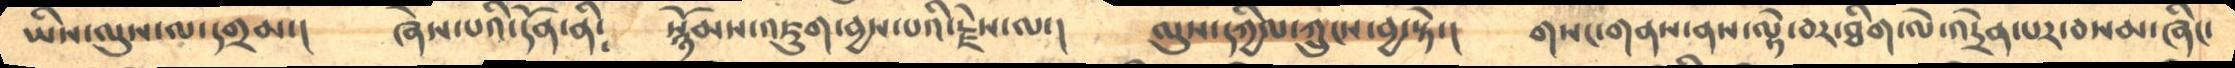ཡིས་ལུས་ལ་དགྲམ་།      ཞེས་པའི་དོན་ནི༴   སྙོམས་འཇུག་བྱས་པའི་རྗེས་ལ་།     ལུས་དཀྱིལ་ཀྲུངས་བྱ་སྟེ་།་    གསང་གནས་ནས་ལྟེ་བར་ཐིག་ལེ་འདྲེན་པར་བསམ་ཞིང་
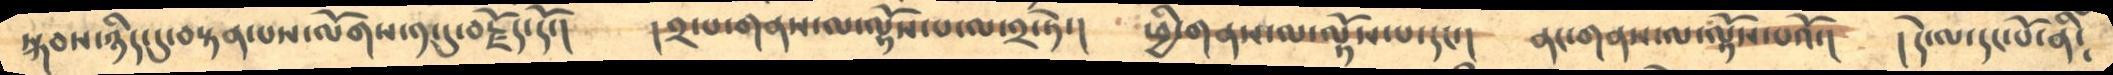སྐབས་ཉིད་དུ་བསྟན་པས་ལོགས་༡་དུ་བརྗོད་དོ་།      །༢་པ་གནས་ལ་ལྟོས་པ་ལ་༢་སྟེ་།     ཕྱི་གནས་ལ་ལྟོས་པ་དང་།     ནང་གནས་ལ་ལྟོས་པའོ་།    །དེ་ལ་དང་པོ་ནི༴
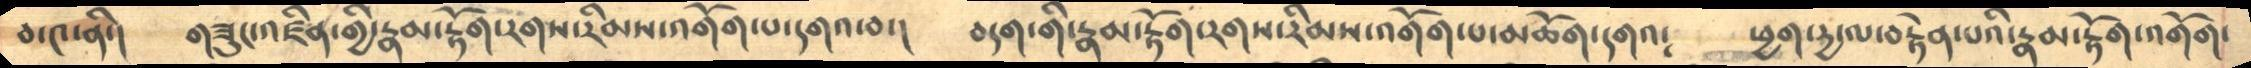བ་༤་ནི་།    གཟུང་འཛིན་གྱི་རྣམ་རྟོག་རགས་རིམས་འགོག་པ་དགའ་བ་།    བདག་གི་རྣམ་རྟོག་རགས་རིམས་འགོག་པ་མཆོག་དགའ༴   ཕྱག་དྱ་ལ་བརྟེན་པའི་རྣམ་རྟོག་འགོག་
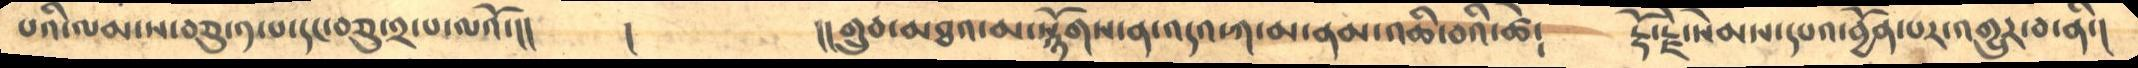པའི་ལམ་ས་བཅུ་༡་པ་དང་བཅུ་༢་པ་ལའོ་།།   །     །།གྲུབ་མཐའ་མ་སྙོགས་ན་འདའ་ཀ་མ་ནམ་འཆི་བའི་ཚེ༴     རྡོ་རྗེ་སེམས་དཔའ་བྱོན་པར་འགྱུར་བ་ནི་།
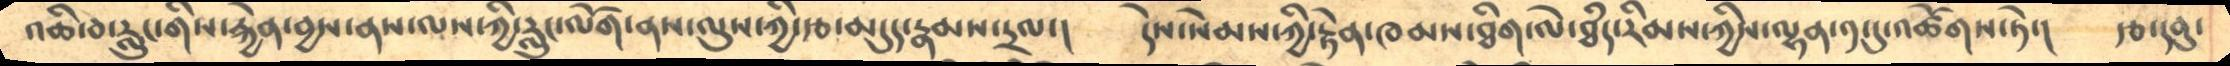འཆི་བ་རླུང་གིས་རྐྱེན་བྱས་ནས་ལས་ཀྱི་རླུང་ལོག་ནས་ལུས་ཀྱི་རྩ་མདུད་རྣམས་དྲལ་།      དེས་སེམས་ཀྱི་རྟེན་ཁམས་ཐིག་ལེ་ཐཾད་རིམས་ཀྱིས་ལྷན་༡་དུ་འཚོགས་ཏེ་།  རྩ་དབུ་
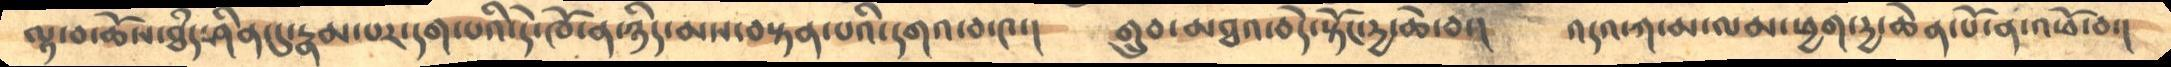ལྟ་བ་ཆོས་ཐཾད་ཤིན་དུ་རྣམཔར་དག་པའི་དེ་ཁོ་ན་ཉིད་མས་བསྟན་པའི་དགའ་བ་༤་།      གྲུབ་མཐའ་བདེ་སྟོང་དྱ་ཆེ་བ་།      འདའ་ཀ་མ་ལམ་ཕྱག་དྱ་ཆེན་པོ་ན་འཕོ་བ་།
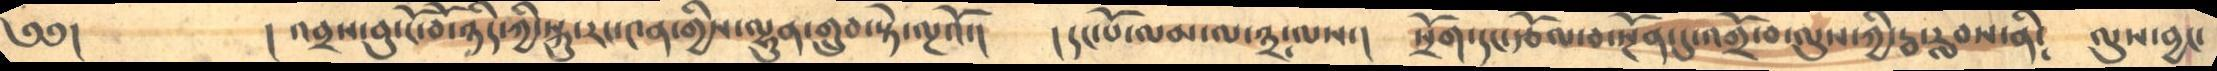༄༅།            །འབྲས་བུ་ངོ་བོ་ཉིད་ཀྱི་སྐུ་རང་༤ན་གྱིས་ལྷུན་གྲུབ་སྟེ་ལྔའོ་།     །དང་པོ་ལམ་ལ་༣་ལས་།    སྲོག་དང་རྩོལ་བ་སྔོན་དུ་འགྲོ་བ་ལུས་ཀྱི་རྦ་རླབས་ནི༴   ལུས་བྱང་
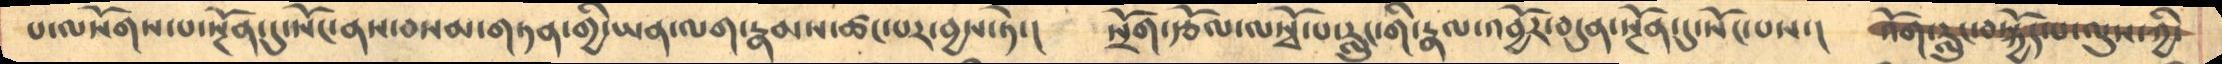པ་ལསོགས་པ་སསྔོན་དུ་སོང་ནས་བསམ་གཏན་གྱི་ཡན་ལག་རྣམས་ཚང་པར་བྱས་ཏེ་།     སྲོག་རྩོལ་ལསྭོ་པ་རླུང་གི་རྣལ་འབྱོར་བདུན་སྔོན་དུ་སོང་པས་།     འོག་རླུང་བསྐྱོད་པ་ལུས་ཀྱི་
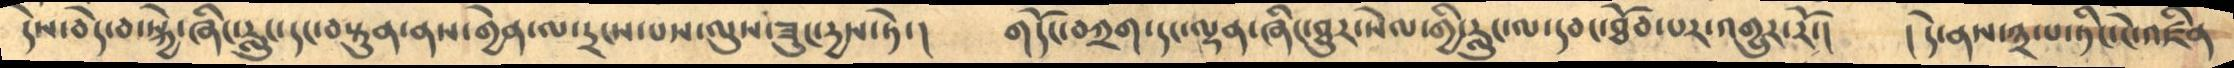དེས་བདེ་བ་སྐྱེ་ཞིང་རླུང་དང་བསྟུན་ནས་གྱེན་ལ་དྲངས་པས་ལུས་ཟུང་དྱས་ཏེ་།      གདོང་བཀྲག་དང་ལྡན་ཞིང་ཐུར་སེལ་གྱི་རླུང་ལ་དབང་ཐོབ་པར་འགྱུར་རོ་།      །དེ་ནས་༣་པ་ཏིང་ངེ་འཛིན
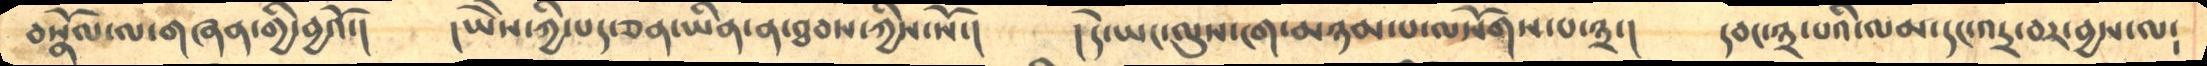བསྣོལ་ལ་གཞན་གྱི་བྱའོ་།        །ཡཻས་ཀྱི་པད་ཅན་ཡིན་ན་ཐབས་ཀྱིས་སོ་།        །དེ་ཡང་ལུས་ངག་མཉམ་པ་ལསོགས་པ་༣་།      དབང་༣་པའི་ལམ་དང་འདྲ་བར་བྱས་ལ༴
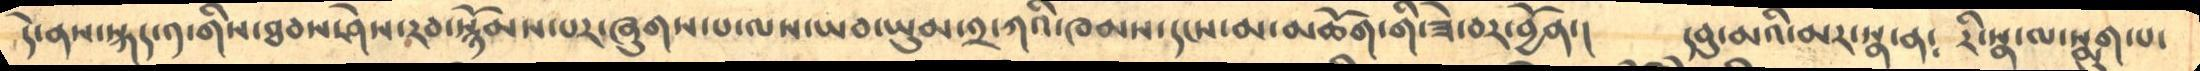དེ་ནས་སྐད་༡་གིས་ཐབས་ཤེས་རབ་སྙོམས་པར་ཞུགས་པ་ལས་ཡབ་ཡུམ་༢་ཀའི་ཁམས་དངས་མ་མཆོག་གི་ཟེ་བར་བྱོན་།     དབུ་མའི་མར་སྣ་ན༴   རི་སྣ་ལ་སྨུག་པ་
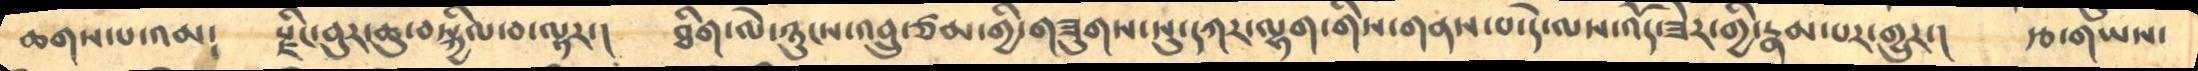ཆགས་པ་འམ༴     རྫིང་བུར་ཆུ་བསྐྱིལ་བ་ལྟར་།     ཐིག་ལེ་ཉུངས་འབྲུ་ཙམ་གྱི་གཟུགས་སུ་དཀར་ལྷག་གིས་གནས་པ་དེ་ལས་འོད་ཟེར་གྱི་རྣམ་པར་གྱུར་།      རྩ་གཡས་
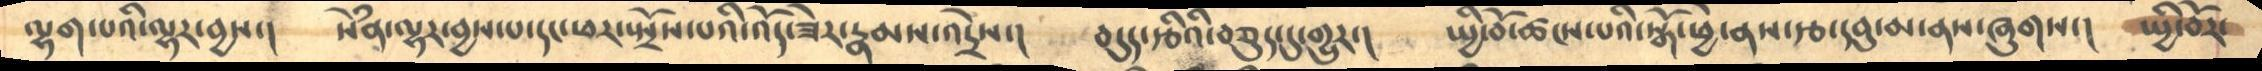ལྷག་པའི་ལྷར་བྱས་།      སེཾན་ལྷར་བྱས་པ་དང་ཕར་སྤྲོས་པའི་འོད་ཟེར་རྣམས་འདྲེས་།      བདུད་རྩིའི་བཅུད་དུ་གྱུར་།     སྤྱི་བོ་ཚངས་པའི་སྒོ་ཕྱེ་ནས་རྩ་དབུ་མ་ནས་ཞུགས་།      སྤྱི་བོར་
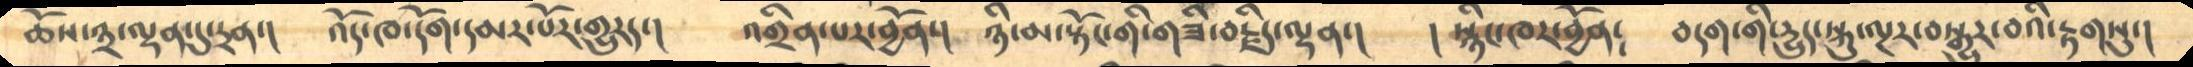ཆོས་༣་ལྡན་དུ་དྲན་།       འོད་ཁ་དོག་དམར་པོར་གྱུརད་།     འགྲིན་པར་བྱོན་།   ཉི་མ་སྟོང་གི་གཟི་བརྗིད་ལྡན་།    ། སྙིང་ཁར་བྱོན༴   བདག་གི་དྱུད་སྐུ་ལྔར་བསྒྱུར་བའི་རྟགསུ་།
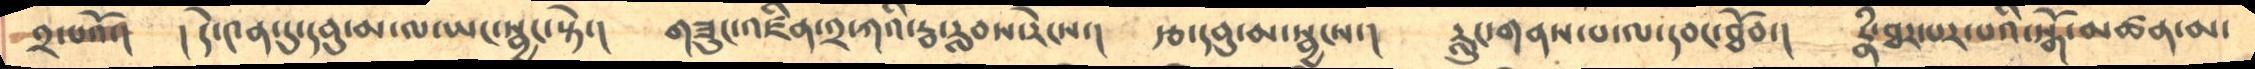༢་པའོ་།      ། དེ་༤ན་དུ་དབུ་མ་ལ་ཡང་སྦྱང་སྟེ་།    གཟུང་འཛིན་༢་ཀའི་རྦ་རླབས་རེངས་།      རྩ་དབུ་མ་སྦྱངས་།     རླུང་གནས་པ་ལ་དབང་ཐོབ་།    རྣཾ་ཐར་པར་པའི་སྒོ་མཚན་མ་
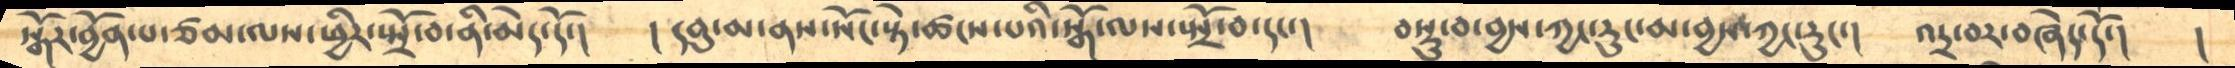སྒོར་བྱོན་པ་ཙམ་ལས་ཕྱིར་སྤྲོ་བ་ནི་མེད་དོ་།      ། དབུ་མ་ནས་སོང་སྟེ་ཚངས་པའི་སྒོ་ལས་སྤྲོ་བ་དང་།          བསྡུ་བ་བྱས་ཀྱང་རུང་མ་བྱས་ཀྱང་རུང་།     འདྲ་བར་བཞེད་དོ་།     །
